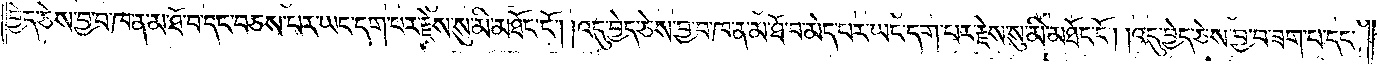བྱེད་ཅེས་བྱ་བ་ཁ་ན་མ་ཐོ་བ་དང་བཅས་པར་ཡང་དག་པར་རྗེས་སུ་མི་མཐོང་ངོ༌། །འདུ་བྱེད་ཅེས་བྱ་བ་ཁ་ན་མ་ཐོ་བ་མེད་པར་ཡང་དག་པར་རྗེས་སུ་མི་མཐོང་ངོ༌། །འདུ་བྱེད་ཅེས་བྱ་བ་ཟག་པ་དང་
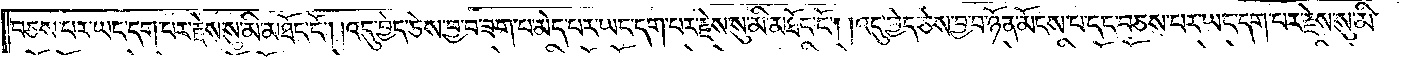བཅས་པར་ཡང་དག་པར་རྗེས་སུ་མི་མཐོང་ངོ༌། །འདུ་བྱེད་ཅེས་བྱ་བ་ཟག་པ་མེད་པར་ཡང་དག་པར་རྗེས་སུ་མི་མཐོང་ངོ༌། །འདུ་བྱེད་ཅེས་བྱ་བ་ཉོན་མོངས་པ་དང་བཅས་པར་ཡང་དག་པར་རྗེས་སུ་མི་
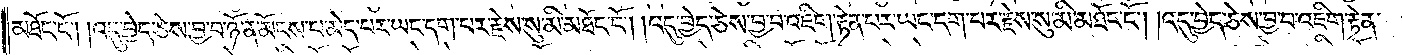མཐོང་ངོ༌། །འདུ་བྱེད་ཅེས་བྱ་བ་ཉོན་མོངས་པ་མེད་པར་ཡང་དག་པར་རྗེས་སུ་མི་མཐོང་ངོ༌། །འདུ་བྱེད་ཅེས་བྱ་བ་འཇིག་རྟེན་པར་ཡང་དག་པར་རྗེས་སུ་མི་མཐོང་ངོ༌། །འདུ་བྱེད་ཅེས་བྱ་བ་འཇིག་རྟེན་
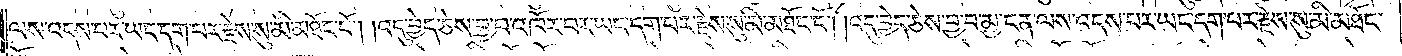ལས་འདས་པར་ཡང་དག་པར་རྗེས་སུ་མི་མཐོང་ངོ༌། །འདུ་བྱེད་ཅེས་བྱ་བ་འཁོར་པར་ཡང་དག་པར་རྗེས་སུ་མི་མཐོང་ངོ༌། །འདུ་བྱེད་ཅེས་བྱ་བ་མྱ་ངན་ལས་འདས་པར་ཡང་དག་པར་རྗེས་སུ་མི་མཐོང་
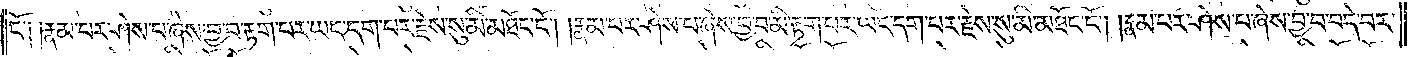ངོ༑ ༑རྣམ་པར་ཤེས་པ་ཞེས་བྱ་བྲག་པར་ཡང་དག་པར་རྗེས་སུ་མི་མཐོང་ངོ༌། །རྣམ་པར་ཤེས་པ་ཞེས་བྱ་བ་མི་རྟག་པར་ཡང་དག་པར་རྗེས་སུ་མི་མཐོང་ངོ༌། །རྣམ་པར་ཤེས་པ་ཞེས་བྱ་བ་བདེ་བར་
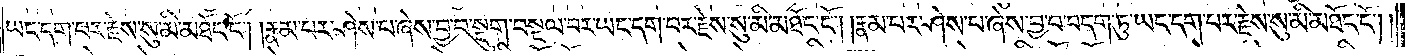ཡང་དག་པར་རྗེས་སུ་མི་མཐོང་ངོ༌། །རྣམ་པར་ཤེས་པ་ཞེས་བྱ་བ་སྡུག་བསྔལ་བར་ཡང་དག་པར་རྗེས་སུ་མི་མཐོང་ངོ༌། །རྣམ་པར་ཤེས་པ་ཞེས་བྱ་བ་བདག་ཏུ་ཡང་དག་པར་རྗེས་སུ་མི་མཐོང་ངོ༌། །
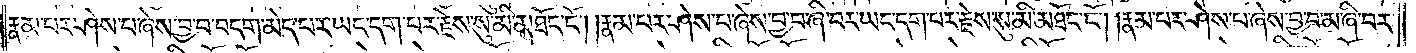རྣམ་པར་ཤེས་པ་ཞེས་བྱ་བ་བདག་མེད་པར་ཡང་དག་པར་རྗེས་སུ་མི་མཐོང་ངོ༌། །རྣམ་པར་ཤེས་པ་ཞེས་བྱ་བ་ཞི་བར་ཡང་དག་པར་རྗེས་སུ་མི་མཐོང་ངོ༌། །རྣམ་པར་ཤེས་པ་ཞེས་བྱ་བ་མ་ཞི་བར་
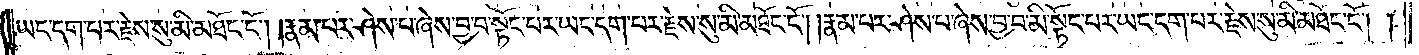ཡང་དག་པར་རྗེས་སུ་མི་མཐོང་ངོ༌། །རྣམ་པར་ཤེས་པ་ཞེས་བྱ་བ་སྟོང་པར་ཡང་དག་པར་རྗེས་སུ་མི་མཐོང་ངོ༌། །རྣམ་པར་ཤེས་པ་ཞེས་བྱ་བ་མི་སྟོང་པར་ཡང་དག་པར་རྗེས་སུ་མི་མཐོང་ངོ༌། །
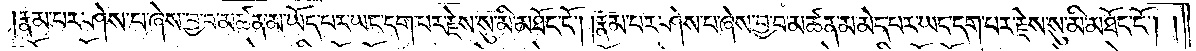རྣམ་པར་ཤེས་པ་ཞེས་བྱ་བ་མཚན་མ་ཡོད་པར་ཡང་དག་བར་རྗེས་སུ་མི་མཐོང་ངོ༌། །རྣམ་པར་ཤེས་པ་ཞེས་བྱ་བ་མཚན་མ་མེད་པར་ཡང་དག་པར་རྗེས་སུ་མི་མཐོང་ངོ༌། །
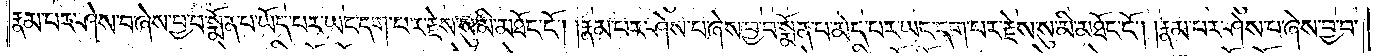རྣམ་པར་ཤེས་བ་ཞེས་བྱ་བ་སྨོན་བ་ཡོད་པར་ཡང་དག་པར་རྗེས་སུ་མི་མཐོང་ངོ༌། །རྣམ་པར་ཤེས་པ་ཞེས་བྱ་བ་སྨོན་པ་མེད་པར་ཡང་དག་པར་རྗེས་སུ་མི་མཐོང་ངོ༌། །རྣམ་པར་ཤེས་པ་ཞེས་བྱ་བ་
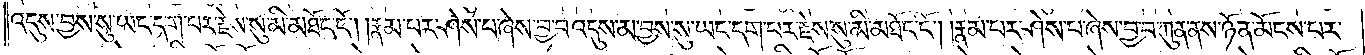འདུས་བྱས་སུ་ཡང་དག་པར་རྗེས་སུ་མི་མཐོང་ངོ༑ ༑རྣམ་པར་ཤེས་པ་ཞེས་བྱ་བ་འདུས་མ་བྱས་སུ་ཡང་དག་པར་རྗེས་སུ་མི་མཐོང་ངོ༌། །རྣམ་པར་ཤེས་པ་ཞེས་བྱ་བ་ཀུན་ནས་ཉོན་མོངས་པར་
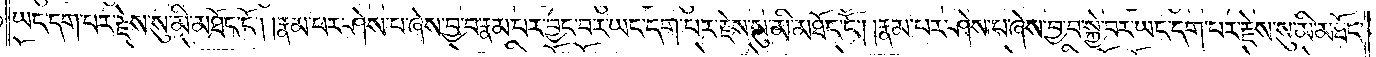ཡང་དག་པར་རྗེས་སུ་མི་མཐོང་ངོ༌། །རྣམ་པར་ཤེས་པ་ཞེས་བྱ་བ་རྣམ་པར་བྱང་བར་ཡང་དག་པར་རྗེས་སུ་མི་མཐོང་ངོ༌། །རྣམ་པར་ཤེས་པ་ཞེས་བྱ་བ་སྐྱེ་བར་ཡང་དག་པར་རྗེས་སུ་མི་མཐོང་
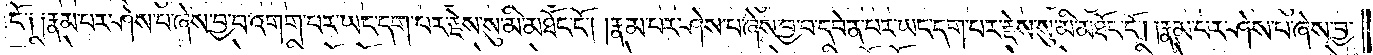ངོ༑ ༑རྣམ་པར་ཤེས་པ་ཞེས་བྱ་བ་འགག་པར་ཡང་དག་པར་རྗེས་སུ་མི་མཐོང་ངོ༌། །རྣམ་པར་ཤེས་པ་ཞེས་བྱ་བ་དབེན་པར་ཡང་དག་པར་རྗེས་སུ་མི་མཐོང་ངོ༌། །རྣམ་པར་ཤེས་པ་ཞེས་བྱ་
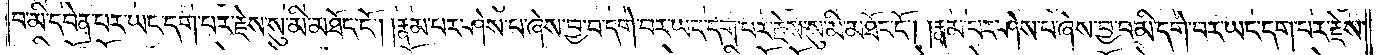བ་མི་དབེན་པར་ཡང་དག་བར་རྗེས་སུ་མི་མཐོང་ངོ༌། །རྣམ་པར་ཤེས་པ་ཞེས་བྱ་བ་དགེ་བར་ཡང་དག་པར་རྗེས་སུ་མི་མཐོང་ངོ༌། །རྣམ་པར་ཤེས་པ་ཞེས་བྱ་བ་མི་དགེ་བར་ཡང་དག་པར་རྗེས་
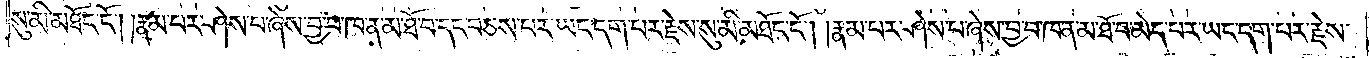སུ་མི་མཐོང་ངོ༌། །རྣམ་པར་ཤེས་པ་ཞེས་བྱ་བ་ཁ་ན་མ་ཐོ་བ་དང་བཅས་པར་ཡང་དག་པར་རྗེས་སུ་མི་མཐོང་ངོ༌། །རྣམ་པར་ཤེས་པ་ཞེས་བྱ་བ་ཁ་ན་མ་ཐོ་བ་མེད་པར་ཡང་དག་པར་རྗེས་
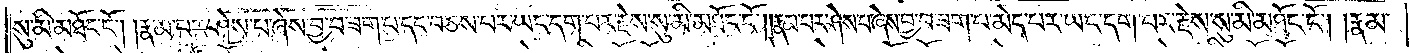སུ་མི་མཐོང་ངོ༌། །རྣམ་པར་ཤེས་པ་ཞེས་བྱ་བ་ཟག་པ་དང་བཅས་པར་ཡང་དག་པར་རྗེས་སུ་མི་མཐོང་ངོ༌། །རྣམ་པར་ཤེས་པ་ཞེས་བྱ་བ་ཟག་པ་མེད་པར་ཡང་དག་པར་རྗེས་སུ་མི་མཐོང་ངོ༌། །རྣམ་
